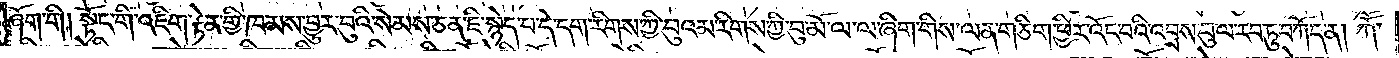ཞོག་གི །སྟོང་གི་འཇིག་རྟེན་གྱི་ཁམས་བྱུར་བུའི་སེམས་ཅན་ཇི་སྙེད་པ་དེ་དག་རིགས་ཀྱི་བུའམ་རིགས་ཀྱི་བུ་མོ་ལ་ལ་ཞིག་གིས་ལན་གཅིག་ཕྱིར་འོང་བའི་འབྲས་བུ་ལ་རབ་ཏུ་བཀོད་ན། ཀཽ་
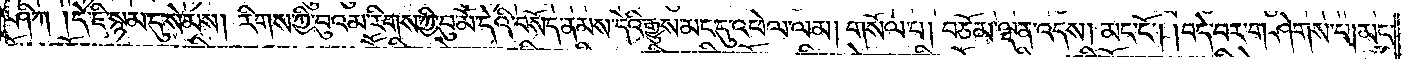ཤི་ཀ། དེ་ཇི་སྙམ་དུ་སེམས། རིགས་ཀྱི་བུའམ་རིགས་ཀྱི་བུ་མོ་དེའི་བསོད་ནམས་དེའི་རྒྱུས་མང་དུ་འཕེལ་ལམ། གསོལ་པ། བཅོམ་ལྡན་འདས། མང་ངོ༌། །བདེ་བར་གཤེགས་པ། མང་
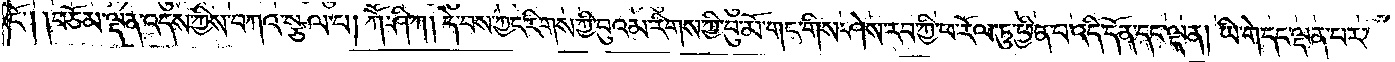ངོ༌། །བཅོམ་ལྡན་འདས་ཀྱིས་བཀའ་སྩལ་པ། ཀཽ་ཤི་ཀ། དེ་བས་ཀྱང་རིགས་ཀྱི་བུའམ་རིགས་ཀྱི་བུ་མོ་གང་གིས་ཤེས་རབ་ཀྱི་ཕ་རོལ་ཏུ་ཕྱིན་པ་འདི་དོན་དང་ལྡན། ཡི་གེ་དང་ལྡན་པར་
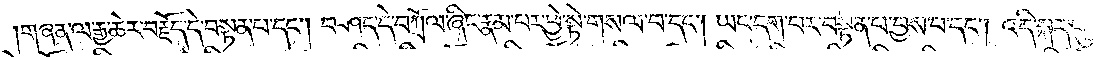གཞན་ལ་རྒྱ་ཆེར་བརྗོད་དེ་བསྟན་པ་དང༌། བཤད་དེ་བཀྲོལ་ཞིང་རྣམ་པར་ཕྱེ་སྟེ་གསལ་བ་དང༌། ཡང་དག་པར་བསྟན་པ་བྱས་པ་དང༌། འདི་སྐད་དུ་ཚུར་རིགས་
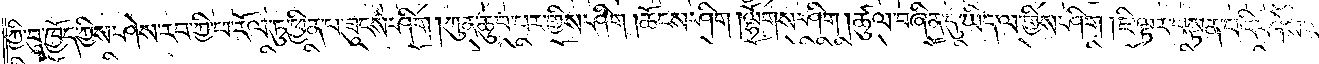ཀྱི་བུ་ཁྱོད་ཀྱིས་ཤེས་རབ་ཀྱི་ཕ་རོལ་ཏུ་ཕྱིན་པ་ཟུངས་ཤིག །ཀུན་ཆུབ་པར་གྱིས་ཤིག །ཆོངས་ཤིག །ལྷོགས་ཤིག །ཚུལ་བཞིན་དུ་ཡིད་ལ་གྱིས་ཤིག །ཇི་ལྟར་བསྟན་པའི་ཤེས་རབ་
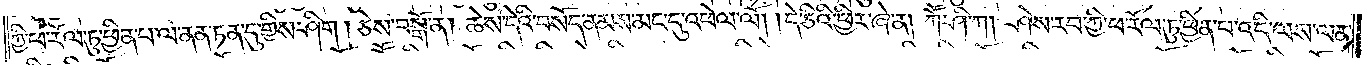ཀྱི་ཕ་རོལ་ཏུ་ཕྱིན་པ་ལ་ནན་ཏན་དུ་གྱིས་ཤིག། ཅེས་བསྒོ་ན། ཆེས་དེའི་བསོད་ནམས་མང་དུ་འཕེལ་ལོ། །དེ་ཅིའི་ཕྱིར་ཞེ་ན། ཀཽ་ཤི་ཀ། ཤེས་རབ་ཀྱི་ཕ་རོལ་ཏུ་ཕྱིན་པ་འདི་ལས་ལན་
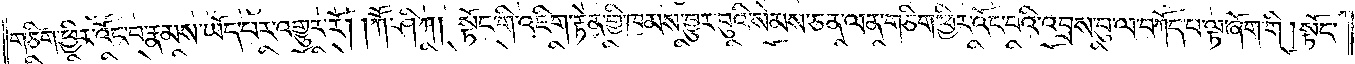གཅིག་ཕྱིར་འོང་བ་རྣམས་ཡོད་པར་འགྱུར་རོ། ཀཽ་ཤི་ཀ། སྟོང་གི་འཇིག་རྟེན་གྱི་ཁམས་བྱུར་བུའི་སེམས་ཅན་ལན་གཅིག་ཕྱིར་འོང་བའི་འབྲས་བུ་ལ་བཀོད་པ་ལྟ་ཞོག་གི །སྟོང་
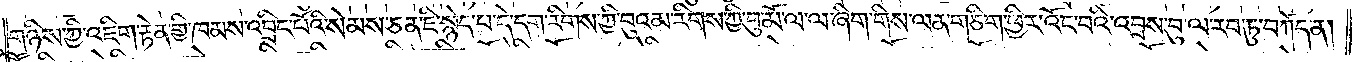གཉིས་ཀྱི་འཇིག་རྟེན་གྱི་ཁམས་འབྲིང་པོའི་སེམས་ཅན་ཇི་སྙེད་པ་དེ་དག་རིགས་ཀྱི་བུའམ་རིགས་ཀྱི་བུ་མོ་ལ་ལ་ཞིག་གིས་ལན་གཅིག་ཕྱིར་འོང་བའི་འབྲས་བུ་ལ་རབ་ཏུ་བཀོད་ན།
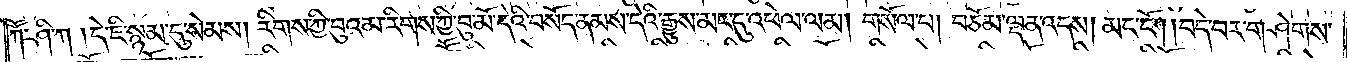ཀཽ་ཤི་ཀ། དེ་ཇི་སྙམ་དུ་སེམས། རིགས་ཀྱི་བུའམ་རིགས་ཀྱི་བུ་མོ་དེའི་བསོད་ནམས་དེའི་རྒྱུས་མང་དུ་འཕེལ་ལམ། གསོལ་པ། བཅོམ་ལྡན་འདས། མང་ངོ༌། །བདེ་བར་གཤེགས་
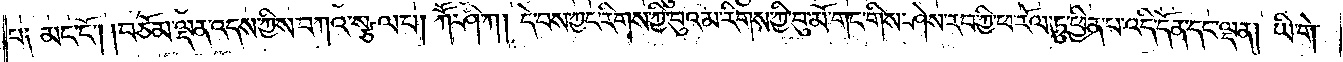པ༑ མང་ངོ༌། །བཅོམ་ལྡན་འདས་ཀྱིས་བཀའ་སྩལ་པ། ཀཽ་ཤི་ཀ། དེ་བས་ཀྱང་རིགས་ཀྱི་བུའམ་རིགས་ཀྱི་བུ་མོ་གང་གིས་ཤེས་རབ་ཀྱི་ཕ་རོལ་ཏུ་ཕྱིན་པ་འདི་དོན་དང་ལྡན། ཡི་གེ་
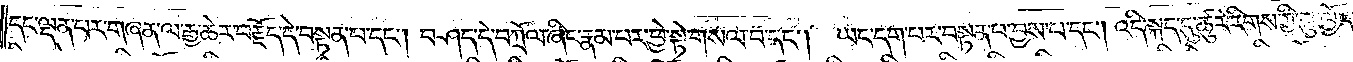དང་ལྡན་པར་གཞན་ལ་རྒྱ་ཆེར་བརྗོད་དེ་བསྟན་པ་དང༌། བཤད་དེ་བཀྲོལ་ཞིང་རྣམ་པར་ཕྱེ་སྟེ་གསལ་བ་དང༌། ཡང་དག་པར་བསྟན་པ་བྱས་པ་དང༌། འདི་སྐད་དུ་ཚུར་རིགས་ཀྱི་བུ་ཁྱོད་
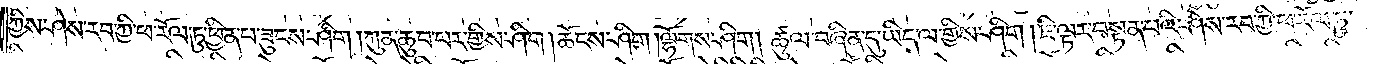ཀྱིས་ཤེས་རབ་ཀྱི་ཕ་རོལ་ཏུ་ཕྱིན་པ་ཟུངས་ཤིག །ཀུན་ཆུབ་པར་གྱིས་ཤིག །ཆོངས་ཤིག །ལྷོགས་ཤིག །ཚུལ་བཞིན་དུ་ཡིད་ལ་གྱིས་ཤིག །ཇི་ལྟར་བསྟན་པའི་ཤེས་རབ་ཀྱི་ཕ་རོལ་ཏུ་
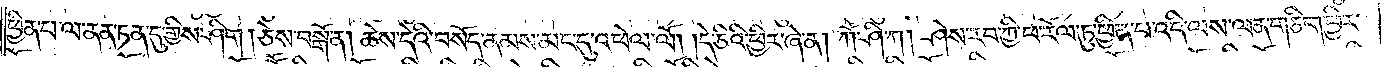ཕྱིན་པ་ལ་ནན་ཏན་དུ་གྱིས་ཤིག །ཅེས་བསྒོ་ན། ཆེས་དེའི་བསོད་ནམས་མང་དུ་འཕེལ་ལོ། །དེ་ཅིའི་ཕྱིར་ཞེ་ན། ཀཽ་ཤི་ཀ། ཤེས་རབ་ཀྱི་ཕ་རོལ་ཏུ་ཕྱིན་པ་འདི་ལས་ལན་གཅིག་ཕྱིར་
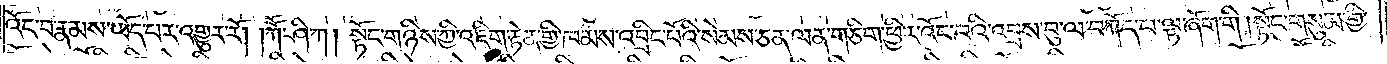འོད་བ་རྣམས་ཡོད་པར་འགྱུར་རོ། །ཀཽ་ཤི་ཀ། སྟོང་གཉིས་ཀྱི་འཇིག་རྟེན་གྱི་ཁམས་འབྲིང་པོའི་སེམས་ཅན་ལན་གཅིག་ཕྱིར་འོང་བའི་འབྲས་བུ་ལ་བཀོད་པ་ལྟ་ཞོག་གི །སྟོང་གསུམ་གྱི་
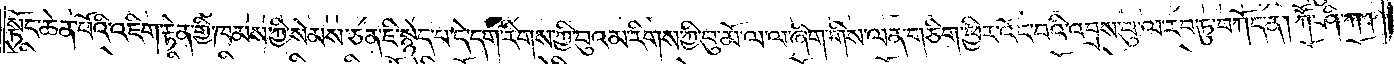སྟོང་ཆེན་པོའི་འཇིག་རྟེན་གྱི་ཁམས་ཀྱི་སེམས་ཅན་ཇི་སྙེད་པ་དེ་དག་རིགས་ཀྱི་བུའམ་རིགས་ཀྱི་བུ་མོ་ལ་ལ་ཞིག་གིས་ལན་གཅིག་ཕྱིར་འོང་བའི་འབྲས་བུ་ལ་རབ་ཏུ་བཀོད་ན། ཀཽ་ཤི་ཀ།
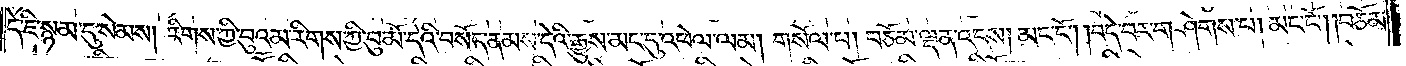དེ་ཇི་སྙམ་དུ་སེམས། རིགས་ཀྱི་བུའམ་རིགས་ཀྱི་བུ་མོ་དེའི་བསོད་ནམས་དེའི་རྒྱུས་མང་དུ་འཕེལ་ལམ། གསོལ་པ། བཅོམ་ལྡན་འདས། མང་ངོ༌། །བདེ་བར་གཤེགས་པ། མང་ངོ༌། །བཅོམ་
